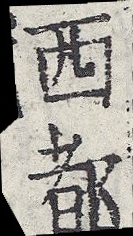西都
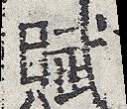賦
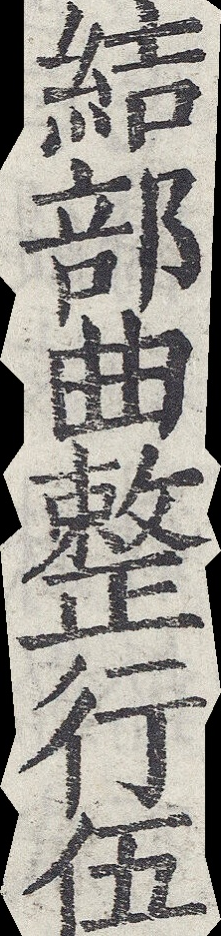結部曲整行伍
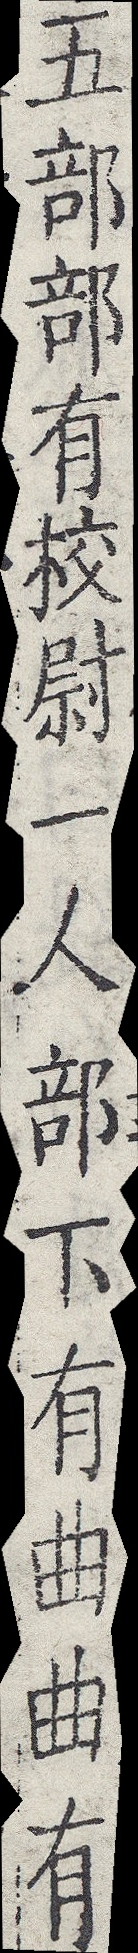五部部有校尉一人部下有曲曲有
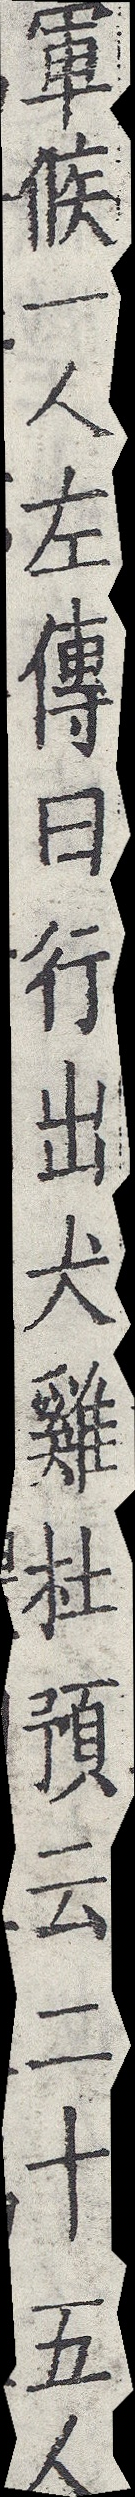軍候一人左傳曰行出犬雞杜預云二十五人
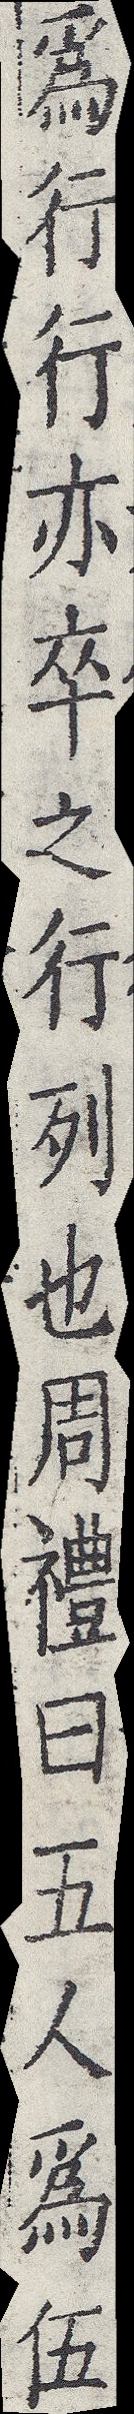為行行亦卒之行列也周禮曰五人為伍
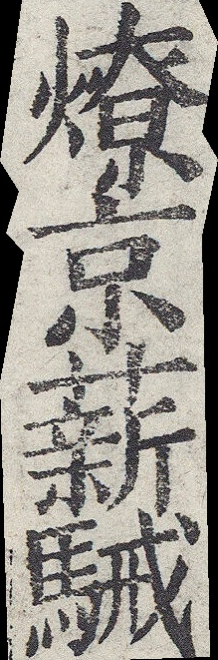燎京薪駴
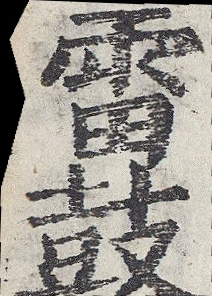雷鼓
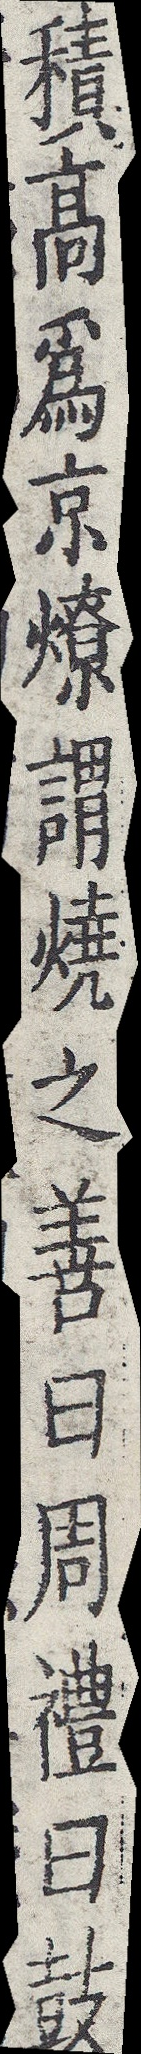積高為京燎謂燒之善曰周禮曰鼓
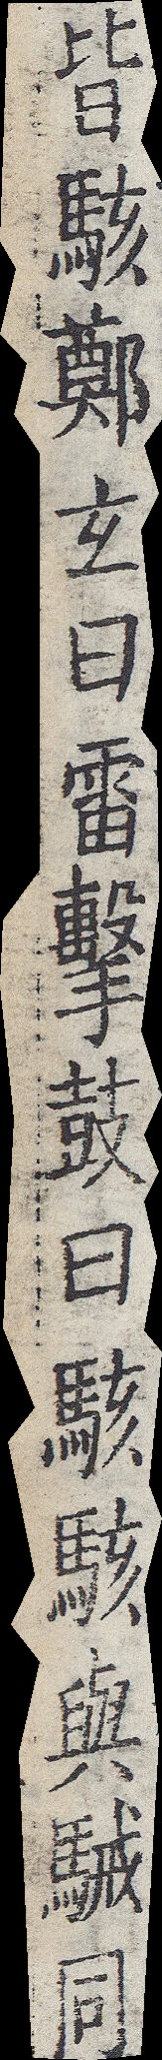皆駭鄭玄曰雷擊鼓曰駭駭與駴同
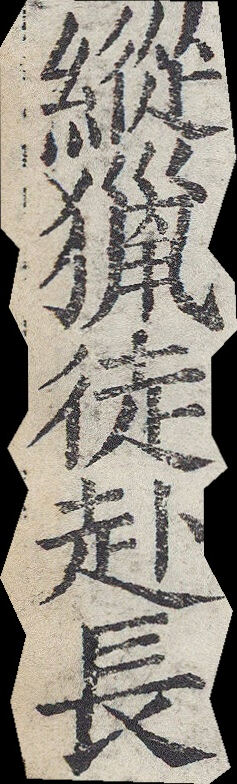縱獵徒赴長
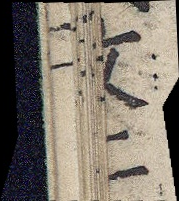文二
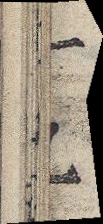十九
